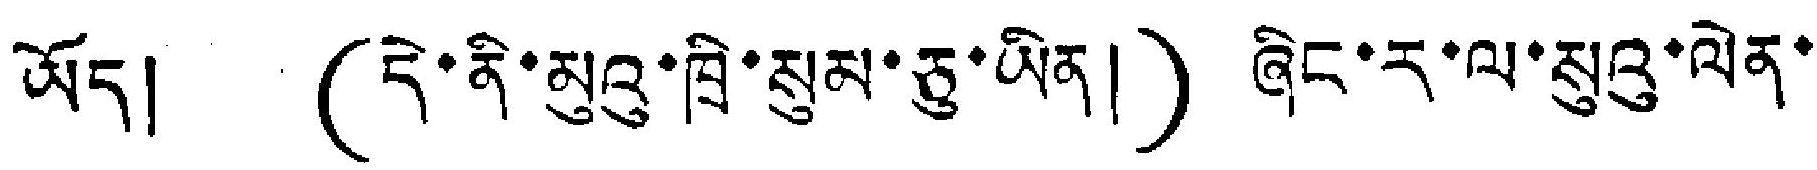ཡོད། (དེ་ནི་མུའུ་ཁྲི་སུམ་ཅུ་ཡིན།) ཞིང་ར་ལ་སུའུ་ལེན་
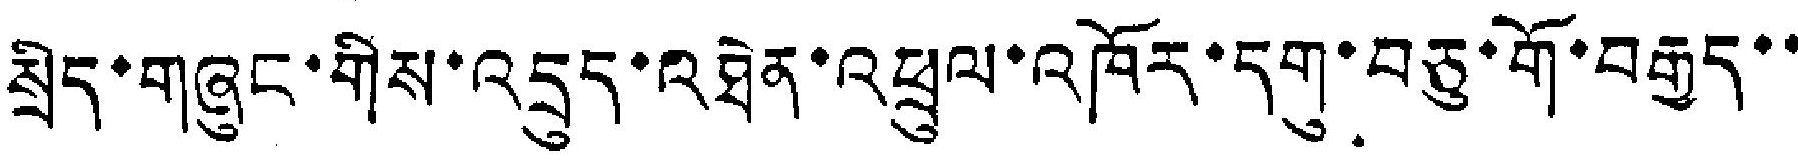སྲིད་གཞུང་གིས་འདྲུད་འཐེན་འཕྲུལ་འཁོར་དགུ་བཅུ་གོ་བརྒྱད་་
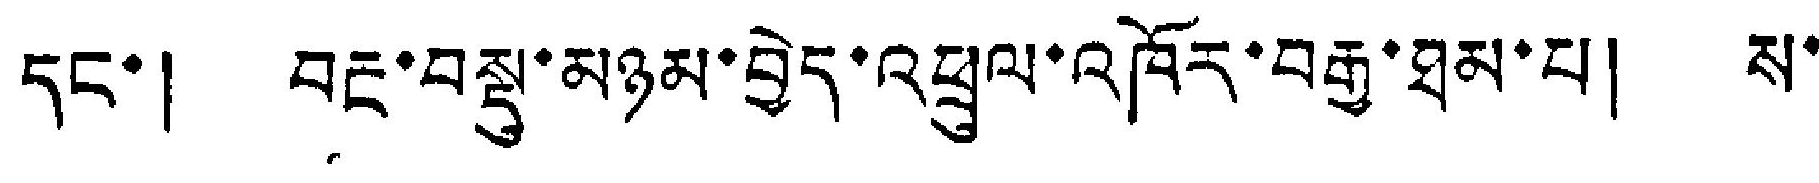དང་། བརྔ་བསྡུ་མཉམ་བྱེད་འཕྲུལ་འཁོར་བརྒྱ་ཐམ་པ། ས་
